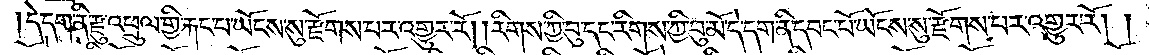དེ་དག་ནི་རྫུ་འཕྲུལ་གྱི་རྐང་པ་ཡོངས་སུ་རྫོགས་པར་འགྱུར་རོ། །རིགས་ཀྱི་བུ་དང་རིགས་ཀྱི་བུ་མོ་དེ་དག་ནི་དབང་པོ་ཡོངས་སུ་རྫོགས་པར་འགྱུར་རོ། །
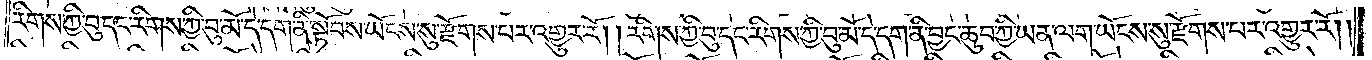རིགས་ཀྱི་བུ་དང་རིགས་ཀྱི་བུ་མོ་དེ་དག་ནི་སྟོབས་ཡོངས་སུ་རྫོགས་པར་འགྱུར་རོ། །རིགས་ཀྱི་བུ་དང་རིགས་ཀྱི་བུ་མོ་དེ་དག་ནི་བྱང་ཆུབ་ཀྱི་ཡན་ལག་ཡོངས་སུ་རྫོགས་པར་འགྱུར་རོ། །
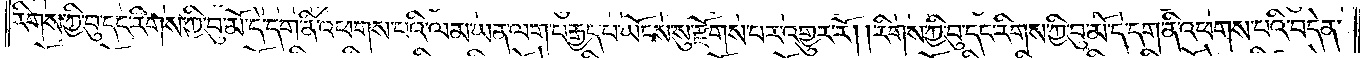རིགས་ཀྱི་བུ་དང་རིགས་ཀྱི་བུ་མོ་དེ་དག་ནི་འཕགས་པའི་ལམ་ཡན་ལག་བརྒྱད་པ་ཡོངས་སུ་རྫོགས་པར་འགྱུར་རོ། །རིགས་ཀྱི་བུ་དང་རིགས་ཀྱི་བུ་མོ་དེ་དག་ནི་འཕགས་པའི་བདེན་
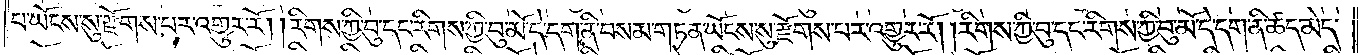པ་ཡོངས་སུ་རྫོགས་པར་འགྱུར་རོ། །རིགས་ཀྱི་བུ་དང་རིགས་ཀྱི་བུ་མོ་དེ་དག་ནི་བསམ་གཏན་ཡོངས་སུ་རྫོགས་པར་འགྱུར་རོ། །རིགས་ཀྱི་བུ་དང་རིགས་ཀྱི་བུ་མོ་དེ་དག་ནི་ཚད་མེད་
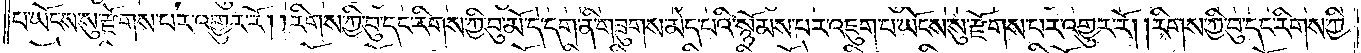པ་ཡོངས་སུ་རྫོགས་པར་འགྱུར་རོ། །རིགས་ཀྱི་བུ་དང་རིགས་ཀྱི་བུ་མོ་དེ་དག་ནི་གཟུགས་མེད་པའི་སྙོམས་པར་འཇུག་པ་ཡོངས་སུ་རྫོགས་པར་འགྱུར་རོ། །རིགས་ཀྱི་བུ་དང་རིགས་ཀྱི་
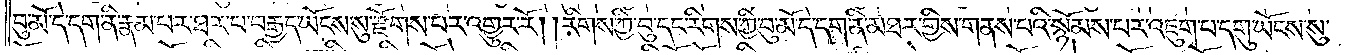བུ་མོ་དེ་དག་ནི་རྣམ་པར་ཐར་པ་བརྒྱད་ཡོངས་སུ་རྫོགས་པར་འགྱུར་རོ། །རིགས་ཀྱི་བུ་དང་རིགས་ཀྱི་བུ་མོ་དེ་དག་ནི་མཐར་གྱིས་གནས་པའི་སྙོམས་པར་འཇུག་པ་དགུ་ཡོངས་སུ་
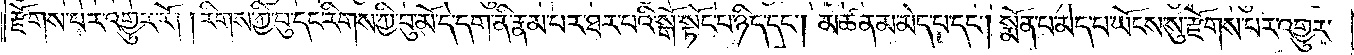རྫོགས་པར་འགྱུར་རོ། །རིགས་ཀྱི་བུ་དང་རིགས་ཀྱི་བུ་མོ་དེ་དག་ནི་རྣམ་པར་ཐར་པའི་སྒོ་སྟོང་པ་ཉིད་དང༌། མཚན་མ་མེད་པ་དང༌། སྨོན་པ་མེད་པ་ཡོངས་སུ་རྫོགས་པར་འགྱུར་
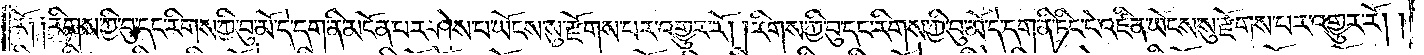རོ༑ ༑རིགས་ཀྱི་བུ་དང་རིགས་ཀྱི་བུ་མོ་དེ་དག་ནི་མངོན་པར་ཤེས་པ་ཡོངས་སུ་རྫོགས་པར་འགྱུར་རོ། །རིགས་ཀྱི་བུ་དང་རིགས་ཀྱི་བུ་མོ་དེ་དག་ནི་ཏིང་ངེ་འཛིན་ཡོངས་སུ་རྫོགས་པར་འགྱུར་རོ། །
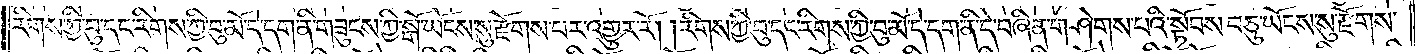རིགས་ཀྱི་བུ་དང་རིགས་ཀྱི་བུ་མོ་དེ་དག་ནི་གཟུངས་ཀྱི་སྒོ་ཡོངས་སུ་རྫོགས་པར་འགྱུར་རོ། །རིགས་ཀྱི་བུ་དང་རིགས་ཀྱི་བུ་མོ་དེ་དག་ནི་དེ་བཞིན་གཤེགས་པའི་སྟོབས་བཅུ་ཡོངས་སུ་རྫོགས་
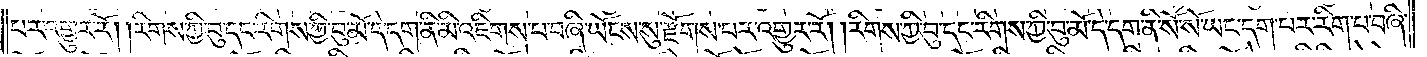པར་འགྱུར་རོ། །རིགས་ཀྱི་བུ་དང་རིགས་ཀྱི་བུ་མོ་དེ་དག་ནི་མི་འཇིགས་པ་བཞི་ཡོངས་སུ་རྫོགས་པར་འགྱུར་རོ། །རིགས་ཀྱི་བུ་དང་རིགས་ཀྱི་བུ་མོ་དེ་དག་ནི་སོ་སོ་ཡང་དག་པར་རིག་པ་བཞི་
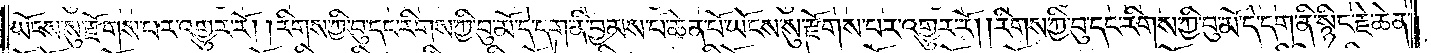ཡོངས་སུ་རྫོགས་པར་འགྱུར་རོ། །རིགས་ཀྱི་བུ་དང་རིགས་ཀྱི་བུ་མོ་དེ་དག་ནི་བྱམས་པ་ཆེན་པོ་ཡོངས་སུ་རྫོགས་པར་འགྱུར་རོ། །རིགས་ཀྱི་བུ་དང་རིགས་ཀྱི་བུ་མོ་དེ་དག་ནི་སྙིང་རྗེ་ཆེན་
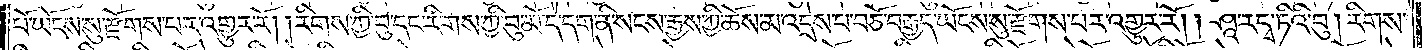པོ་ཡོངས་སུ་རྫོགས་པར་འགྱུར་རོ། །རིགས་ཀྱི་བུ་དང་རིགས་ཀྱི་བུ་མོ་དེ་དག་ནི་སངས་རྒྱས་ཀྱི་ཆོས་མ་འདྲེས་པ་བཅོ་བརྒྱད་ཡོངས་སུ་རྫོགས་པར་འགྱུར་རོ། །ཤཱ་རདྭ་ཏིའི་བུ། རིགས་
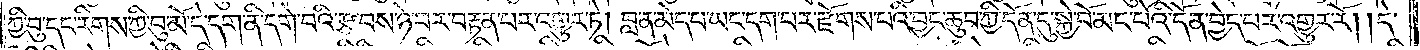ཀྱི་བུ་དང་རིགས་ཀྱི་བུ་མོ་དེ་དག་ནི་དགེ་བའི་རྩ་བས་ཉེ་བར་བརྟན་པར་འགྱུར་ཏེ། བླ་ན་མེད་པ་ཡང་དག་པར་རྫོགས་པའི་བྱང་ཆུབ་ཀྱི་དོན་དུ་སྐྱེ་བོ་མང་པོའི་དོན་བྱེད་པར་འགྱུར་རོ། དེ་
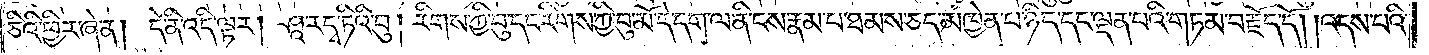ཅིའི་ཕྱིར་ཞེ་ན། དེ་ནི་འདི་ལྟར། ཤཱ་རདྭ་ཏིའི་བུ། རིགས་ཀྱི་བུ་དང་རིགས་ཀྱི་བུ་མོ་དེ་དག་ལ་ནི་ངས་རྣམ་པ་ཐམས་ཅད་མཁྱེན་པ་ཉིད་དང་ལྡན་པའི་གཏམ་བརྗོད་དོ། །འདས་པའི་
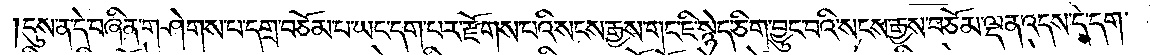དུས་ན་དེ་བཞིན་གཤེགས་པ་དགྲ་བཅོམ་པ་ཡང་དག་པར་རྫོགས་པའི་སངས་རྒྱས་གང་ཇི་སྙེད་ཅིག་བྱུང་བའི་སངས་རྒྱས་བཅོམ་ལྡན་འདས་དེ་དག་
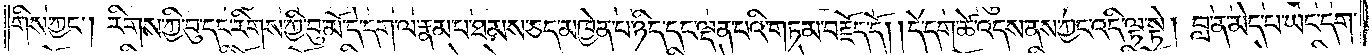གིས་ཀྱང༌། རིགས་ཀྱི་བུ་དང་རིགས་ཀྱི་བུ་མོ་དེ་དག་ལ་རྣམ་པ་ཐམས་ཅད་མཁྱེན་པ་ཉིད་དང་ལྡན་པའི་གཏམ་བརྗོད་དོ། །དེ་དག་ཚེ་འདས་ནས་ཀྱང་འདི་ལྟ་སྟེ། བླ་ན་མེད་པ་ཡང་དག་
